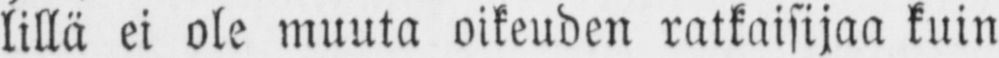lillä ei ole muuta oikeuden ratkaisijaa kuin
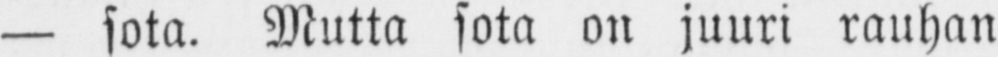— sota. Mutta sota on juuri rauhan
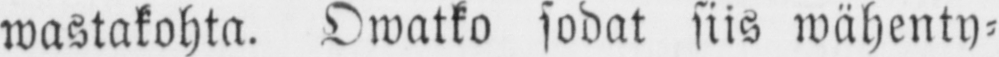wastakohta. Owatko sodat siis wähenty-
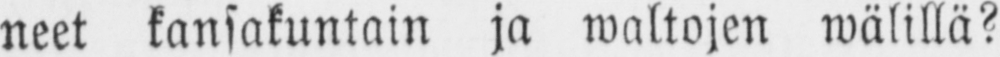neet kansakuntain ja waltojen wälillä?
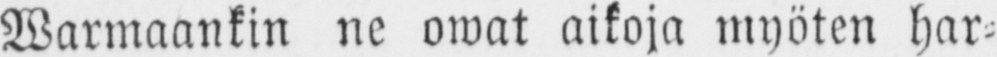Warmaankin ne owat aikoja myöten har-
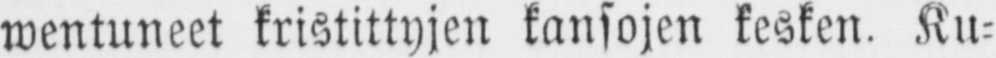wentuneet kristittyjen kansojen kesken. Ku-
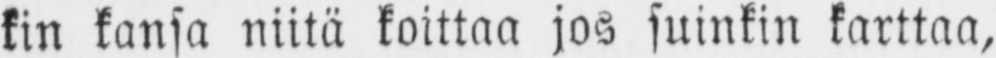kin kansa niitä koittaa jos suinkin karttaa,
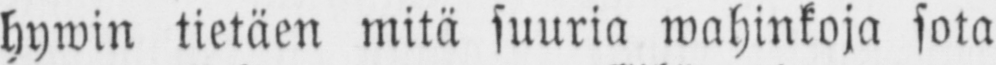hywin tietäen mitä suuria wahinkoja sota
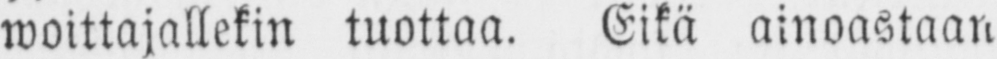woittajallekin tuottaa. Eikä ainoastaan
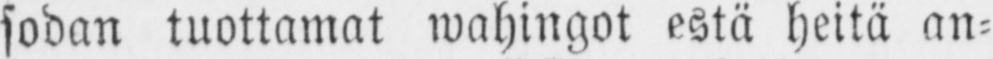sodan tuottamat wahingot estä heitä an-
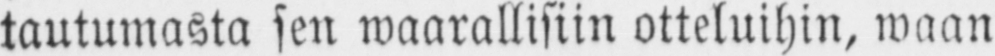tautumasta sen waarallisiin otteluihin, waan
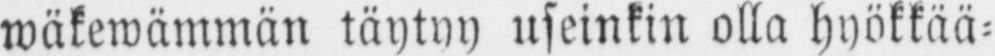wäkewämmän täytyy useinkin olla hyökkää-
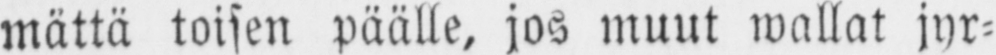mättä loisen päälle, jos muut wallat jyr-
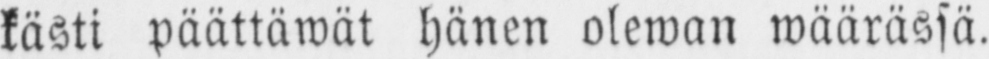kästi päättäwät hänen olewan wäärässä.
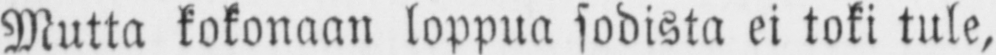Mutta kokonaan loppua sodista ei toki tule,
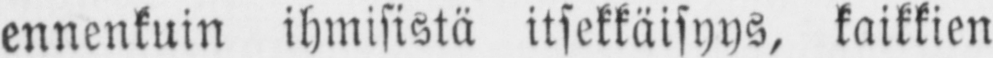ennenkuin ihmisistä itsekkäisyys, kaikkien
